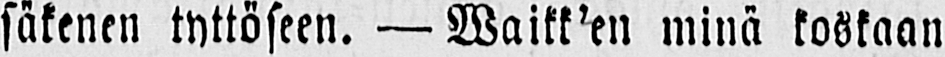sakenen tyttöseen. — Waikk'en minä koskaan
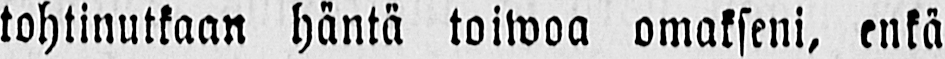tohtinutkaan häntä toiwoa omakseni, enkä
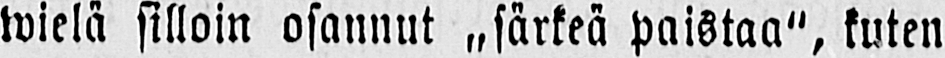wielä silloin osannut „ särkeä paistaa", kuten
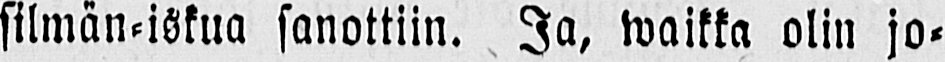silmän-iskua sanottiin. Ja, waikka olin jo-
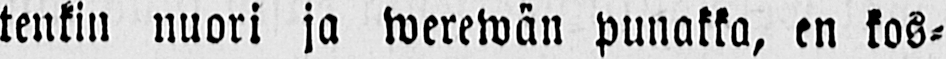tenkin nuori ja werewän punakka, en kos-
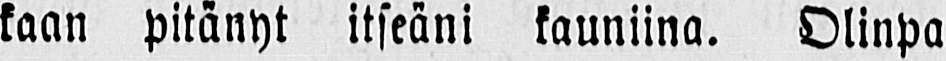kaan pitänyt itseäni kauniina. Olinpa
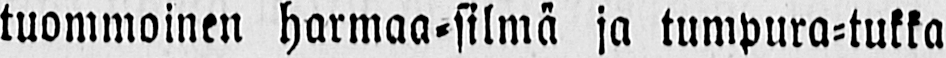tuommoinen harmaa-silmä ja tumpura-tukka
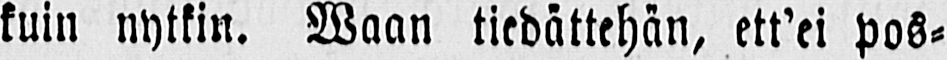kuin nytkin. Waan tiedättehän, ett'ei pos-
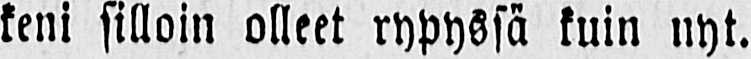keni silloin olleet rypyssä kuin nyt.
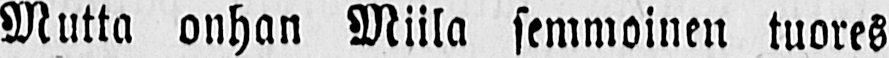Mutta onhan Miila semmoinen tuores
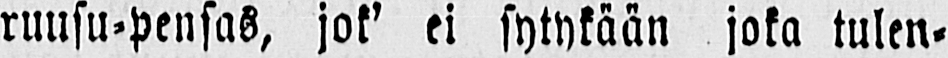ruusu-pensas, jok' ei sytykään joka tulen-
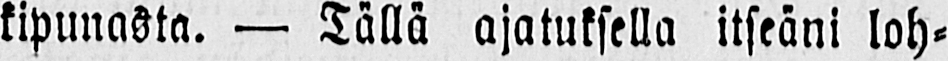kipunasta. — Tällä ajatuksella itseäni loh-
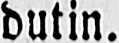dutin.
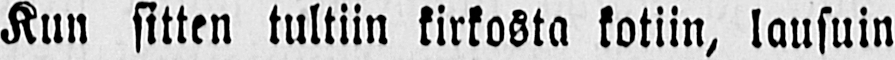Kun sitten tultiin kirkosta kotiin, lausuin
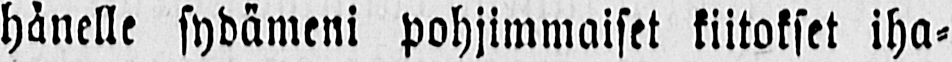hänelle sydämeni pohjimmaiset kiitokset iha-
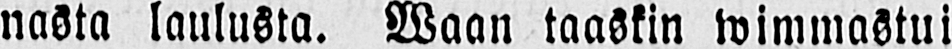nasta laulusta. Waan taaskin wimmastui
